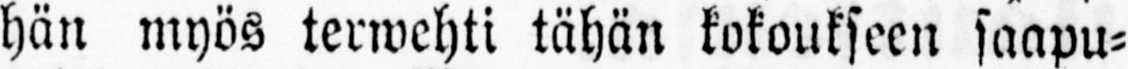hän myös terwehti tähän kokoukseen saapu-
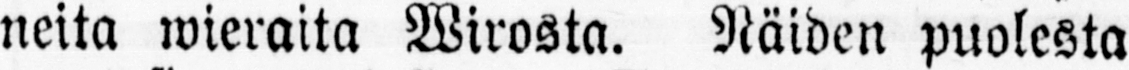neita wieraita Wirosta. Näiden puolesta
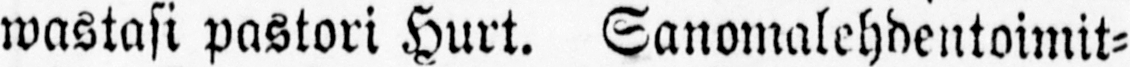wastasi pastori Hurt. Sanomalehdentoimit-
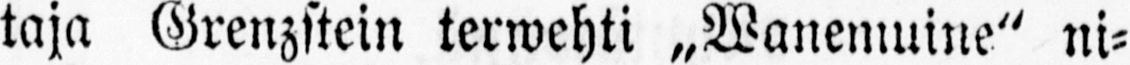taja Grenzstein terwehti „Wanemuine" ni-
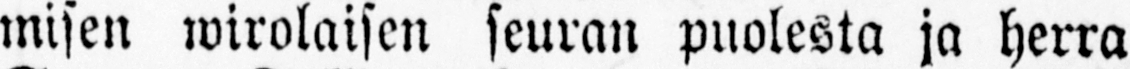misen wirolaisen seuran puolesta ja herra
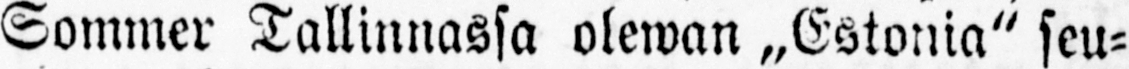Sommer Tallinnassa olewan „Estonia" seu-
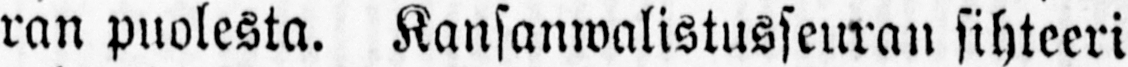ran puolesta. Kansanwalistusseuran sihteeri
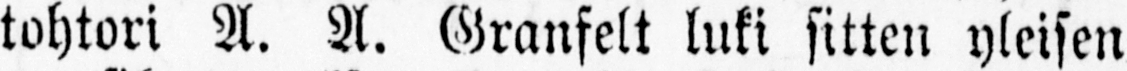tohtori A. A. Granfelt luki sitten yleisen
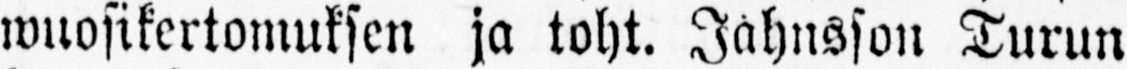wuosikertomuksen ja toht. Jahnsson Turun
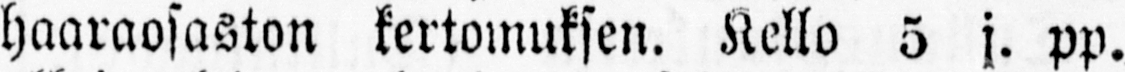haaraosaston kertomuksen. Kello 5 j. pp.
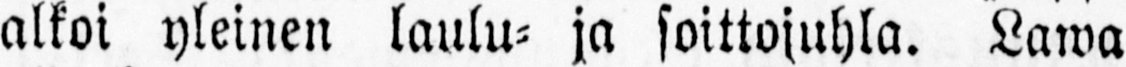alkoi yleinen laulu- ja soittojuhla. Lawa
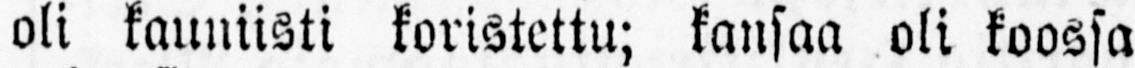oli kauniisti koristettu; kansaa oli koossa
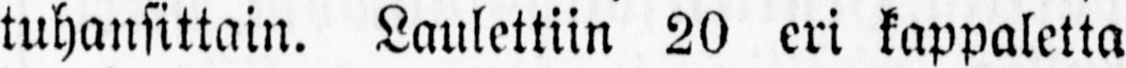tuhansittain. Laulettiin 20 eri kappaletta
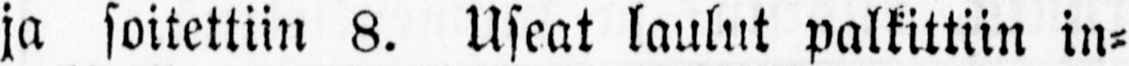ja soitettiin 8. Useat laulut palkittiin in-
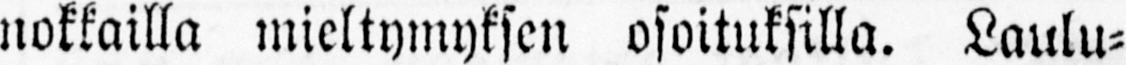nokkailla mieltymyksen osoituksilla. Laulu-
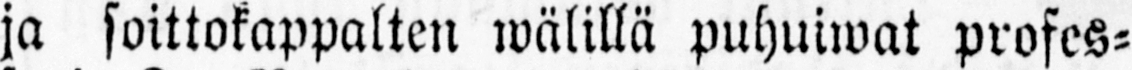ja soittokappalten wälillä puhuiwat profes-
